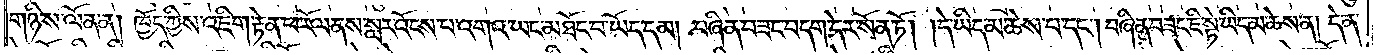གཉིས་ལོན་ན། ཁྱོད་ཀྱིས་འཇིག་རྟེན་ཕ་རོལ་ནས་སླར་འོངས་པ་འགའ་ཡང་མཐོང་བ་ཡོད་དམ། བཞིན་བཟང་བདག་དེར་སོན་ཏོ། །དེ་ཡིད་མ་ཆེས་པ་དང༌། བཞིན་བཟང་ཇི་སྟེ་ཡིད་མ་ཆེས་ན། དེ་ན་
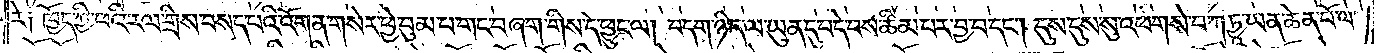རེ༑ ཁྱོད་ཀྱི་ཕའི་རལ་གྲིས་བསད་པའི་འོག་ན་གསེར་ཕྱེ་བུམ་པ་གང་བཞག་གིས་དེ་ཕྱུང་ལ། བདག་ཉིད་ལ་ཡུན་དུ་བདེ་བས་ཚིམ་པར་བྱ་བ་དང༌། དུས་དུས་སུ་འཕགས་པ་ཀ་ཏྱཱ་ཡན་ཆེན་པོ་ལ་
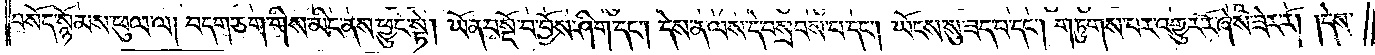བསོད་སྙོམས་ཕུལ་ལ། བདག་ཅག་གིས་མིང་ནས་ཕྱུང་སྟེ། ཡོན་བསྔོ་བ་བྱོས་ཤིག་དང༌། དེས་ན་ལས་དེ་བསྲབས་པ་དང༌། ཡོངས་སུ་ཟད་པ་དང༌། གཏུགས་པར་འགྱུར་རོ་ཞེས་ཟེར་རོ། །དེས་
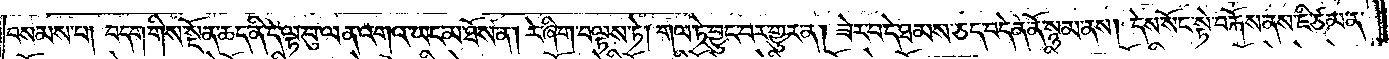བསམས་པ། བདག་གིས་སྔོན་ཆད་ནི་དེ་ལྟ་བུ་ལན་འགའ་ཡང་མ་ཐོས་ན། རེ་ཞིག་བལྟས་ཏེ། གལ་ཏེ་བྱུང་བར་གྱུར་ན། ཟེར་བ་དེ་ཐམས་ཅད་བདེན་ནོ་སྙམ་ནས། དེས་སོང་སྟེ་བརྐོས་ནས་ཇི་ཙམ་ན་
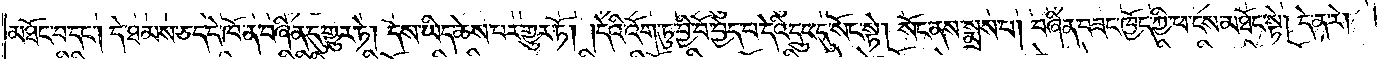མཐོང་བ་དང༌། དེ་ཐམས་ཅད་དེ་ཁོ་ན་བཞིན་དུ་གྱུར་ཏེ། དེས་ཡིད་ཆེས་པར་གྱུར་ཏོ། །དེའི་འོག་ཏུ་བྱི་བོ་བྱེད་པ་དེའི་དྲུང་དུ་སོང་སྟེ། སོང་ནས་སྨྲས་པ། བཞིན་བཟང་ཁྱོད་ཀྱི་ཕ་ངས་མཐོང་སྟེ། དེ་ན་རེ།
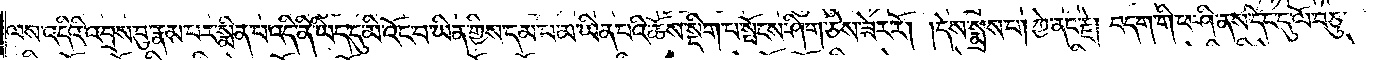ལས་འདིའི་འབྲས་བུ་རྣམ་པར་སྨིན་པ་འདི་ནི་ཡིད་དུ་མི་འོང་བ་ཡིན་གྱིས་དམ་པ་མ་ཡིན་པའི་ཆོས་སྡིག་པ་སྤོངས་ཤིག་ཅེས་ཟེར་རོ། །དེས་སྨྲས་པ། ཀྱེ་ནང་རྗེ། བདག་གི་ཕ་ཤི་ནས་དེང་དུ་ལོ་བཅུ་
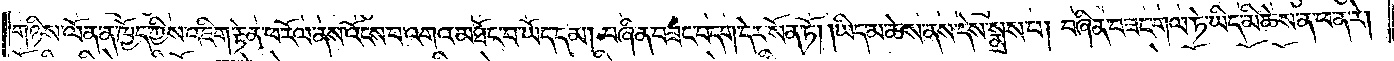གཉིས་ལོན་ན་ཁྱོད་ཀྱིས་འཇིག་རྟེན་ཕ་རོལ་ནས་འོངས་པ་འགའ་མཐོང་བ་ཡོད་དམ། བཞིན་བཟང་བདག་དེར་སོན་ཏོ། །ཡིད་མ་ཆེས་ནས་དེས་སྨྲས་པ། བཞིན་བཟང་གལ་ཏེ་ཡིད་མི་ཆེས་ན་ཕ་ན་རེ།
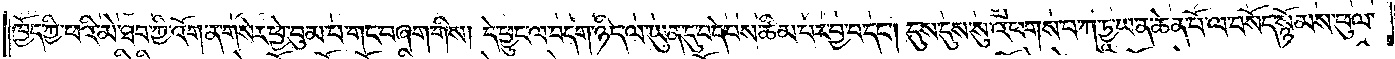ཁྱོད་ཀྱི་ཕའི་མེ་ཐབ་ཀྱི་འོག་ན་གསེར་ཕྱེ་བུམ་པ་གང་བཞག་གིས། དེ་ཕྱུང་ལ་བདག་ཉིད་ལ་ཡུན་དུ་བདེ་བས་ཚིམ་པར་བྱ་བ་དང༌། དུས་དུས་སུ་འཕགས་པ་ཀ་ཏྱཱ་ཡ་ན་ཆེན་པོ་ལ་བསོད་སྙོམས་ཕུལ་
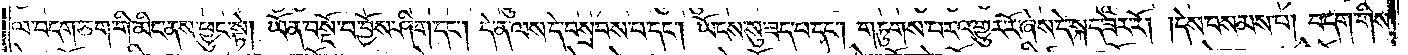ལ་བདག་ཅག་གི་མིང་ནས་ཕྱུང་སྟེ། ཡོན་བསྔོ་བ་བྱོས་ཤིག་དང༌། དེ་ན་ལས་དེ་བསྲབས་པ་དང༌། ཡོངས་སུ་ཟད་པ་དང༌། གཏུགས་པར་འགྱུར་རོ་ཞེས་དེ་སྐད་ཟེར་རོ། །དེས་བསམས་པ། བདག་གིས་
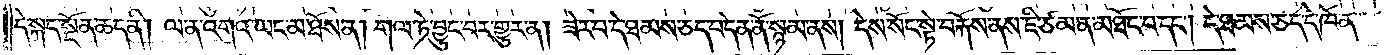དེ་སྐད་སྔོན་ཆད་ནི། ལ་ན་འགའ་ཡང་མ་ཐོས་ན། གལ་ཏེ་བྱུང་བར་གྱུར་ན། ཟེར་བ་དེ་ཐམས་ཅད་བདེན་ནོ་སྙམ་ནས། དེས་སོང་སྟེ་བརྐོས་ནས་ཇི་ཙམ་ན་མཐོང་བ་དང༌། དེ་ཐམས་ཅད་དེ་ཁོ་ན་
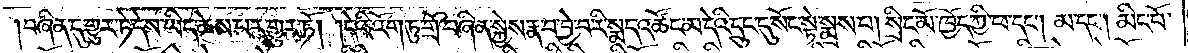བཞིན་དུ་གྱུར་ཏེ་དེས་ཡིད་ཆེས་པར་གྱུར་ཏོ། །དེའི་འོག་ཏུ་གྲོ་བཞིན་སྐྱེས་རྣ་བ་བྱེ་བ་རི་སྨད་འཚོང་མ་དེའི་དྲུང་དུ་སོང་སྟེ་སྨྲས་པ། སྲིང་མོ་ཁྱོད་ཀྱི་ཕ་དང༌། མ་དང༌། མིང་པོ་
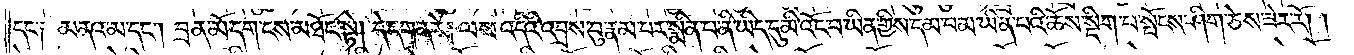དང་༑ མནའ་མ་དང༌། བྲན་མོ་དག་ངས་མཐོང་སྟེ། དེ་དག་ན་རེ། ལས་འདིའི་འབྲས་བུ་རྣམ་པར་སྨིན་པ་ནི་ཡིད་དུ་མི་འོང་བ་ཡིན་གྱིས་དམ་པ་མ་ཡིན་པའི་ཆོས་སྡིག་པ་སྤོངས་ཤིག་ཅེས་ཟེར་རོ། །
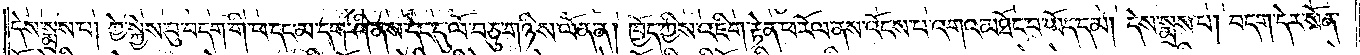དེས་སྨྲས་པ། ཀྱེ་སྐྱེས་བུ་བདག་གི་ཕ་དང་མ་དག་ཤི་ནས་དེང་དུ་ལོ་བཅུ་གཉིས་ལོན་ན། ཁྱོད་ཀྱིས་འཇིག་རྟེན་ཕ་རོལ་ནས་འོངས་པ་འགའ་མཐོང་བ་ཡོད་དམ། དེས་སྨྲས་པ། བདག་དེར་སོན་
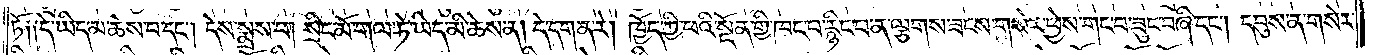ཏོ༑ ༑དེ་ཡིད་མ་ཆེས་པ་དང༌། དེས་སྨྲས་པ། སྲིང་མོ་གལ་ཏེ་ཡིད་མི་ཆེས་ན། དེ་དག་ན་རེ། ཁྱོད་ཀྱི་ཕའི་སྔོན་གྱི་ཁང་པ་རྙིང་པ་ན་ལྕགས་ཟངས་གསེར་ཕྱེས་གང་བ་ཟུང་བཞི་དང༌། དབུས་ན་གསེར་
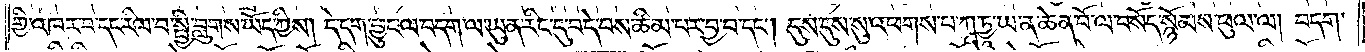གྱི་འཁར་བ་དང་རིལ་བ་སྤྱི་བླུགས་ཡོད་ཀྱིས། དེ་དག་ཕྱུང་ལ་བདག་ལ་ཡུན་རིང་དུ་བདེ་བས་ཚིམ་པར་བྱ་བ་དང༌། དུས་དུས་སུ་འཕགས་པ་ཀ་ཏྱཱ་ཡ་ན་ཆེན་པོ་ལ་བསོད་སྙོམས་ཕུལ་ལ། བདག་
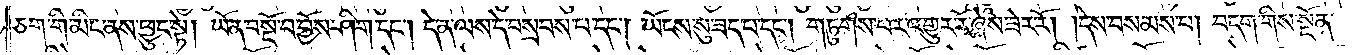ཅག་གི་མིང་ནས་ཕྱུང་སྟེ། ཡོན་བསྔོ་བ་བྱོས་ཤིག་དང༌། དེ་ན་ལས་དེ་བསྲབས་པ་དང༌། ཡོངས་སུ་ཟད་པ་དང༌། གཏུགས་པར་འགྱུར་རོ་ཞེས་ཟེར་རོ། །དེས་བསམས་པ། བདག་གིས་སྔོན་
